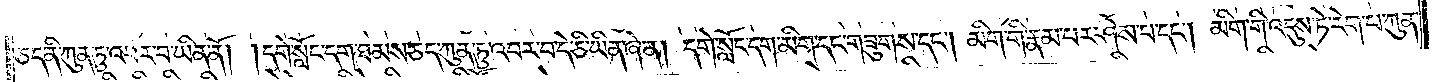ཅད་ནི་ཀུན་ཏུ་འབར་བ་ཡིན་ནོ། །དགེ་སློང་དག་ཐམས་ཅད་ཀུན་ཏུ་འབར་བ་དེ་ཅི་ཡིན་ཞེ་ན། དགེ་སློང་དག་མིག་དང་གཟུགས་དང༌། མིག་གི་རྣམ་པར་ཤེས་པ་དང༌། མིག་གི་འདུས་ཏེ་རེག་པ་ཀུན་
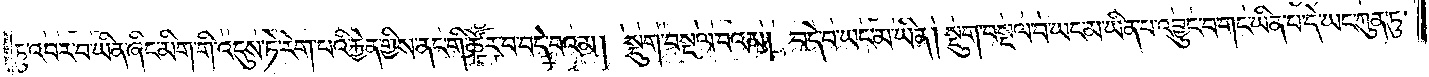ཏུ་འབར་བ་ཡིན་ཞིང་མིག་གི་འདུས་ཏེ་རེག་པའི་རྐྱེན་གྱིས་ནང་གི་ཚོར་བ་བདེ་བའམ། སྡུག་བསྔལ་བའམ། བདེ་བ་ཡང་མ་ཡིན། སྡུག་བསྔལ་བ་ཡང་མ་ཡིན་པ་འབྱུང་བ་གང་ཡིན་པ་དེ་ཡང་ཀུན་ཏུ་
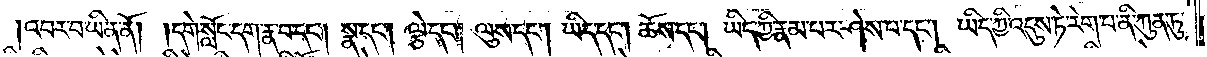འབར་བ་ཡིན་ནོ། །དགེ་སློང་དག་རྣ་བ་དང༌། སྣ་དང༌། ལྕེ་དང༌། ལུས་དང༌། ཡིད་དང༌། ཆོས་དང༌། ཡིད་ཀྱི་རྣམ་པར་ཤེས་པ་དང༌། ཡིད་ཀྱི་འདུས་ཏེ་རེག་པ་ནི་ཀུན་ཏུ་
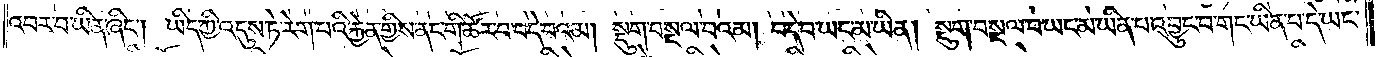འབར་བ་ཡིན་ཞིང༌། ཡིད་ཀྱི་འདུས་ཏེ་རེག་པའི་རྐྱེན་གྱིས་ནང་གི་ཚོར་བ་བདེ་བའམ། སྡུག་བསྔལ་བའམ། བདེ་བ་ཡང་མ་ཡིན། སྡུག་བསྔལ་བ་ཡང་མ་ཡིན་པ་འབྱུང་བ་གང་ཡིན་པ་དེ་ཡང་
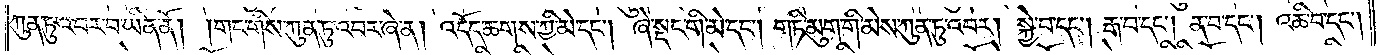ཀུན་ཏུ་འབར་བ་ཡིན་ནོ། །གང་གིས་ཀུན་ཏུ་འབར་ཞེ་ན། འདོད་ཆགས་ཀྱི་མེ་དང༌། ཞེ་སྡང་གི་མེ་དང༌། གཏི་མུག་གི་མེས་ཀུན་ཏུ་འབར། སྐྱེ་བ་དང༌། རྒ་བ་དང༌། ན་བ་དང༌། འཆི་བ་དང༌།
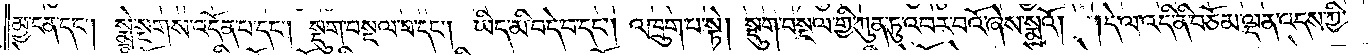མྱ་ངན་དང༌། སྨྲེ་སྔགས་འདོན་པ་དང༌། སྡུག་བསྔལ་བ་དང༌། ཡིད་མི་བདེ་བ་དང༌། འཁྲུག་པ་སྟེ། སྡུག་བསྔལ་གྱི་ཀུན་ཏུ་འབར་བའོ་ཞེས་སྨྲའོ། །དེ་ལ་འདི་ནི་བཅོམ་ལྡན་འདས་ཀྱི་
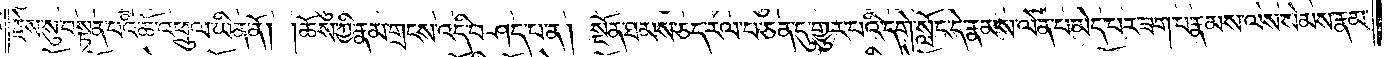རྗེས་སུ་བསྟན་པའི་ཆོ་འཕྲུལ་ཡིན་ནོ། །ཆོས་ཀྱི་རྣམ་གྲངས་འདི་བཤད་པ་ན། སྔོན་ཐམས་ཅད་རལ་པ་ཅན་དུ་གྱུར་པའི་དགེ་སློང་དེ་རྣམས་ལེན་པ་མེད་པར་ཟག་པ་རྣམས་ལས་སེམས་རྣམ་
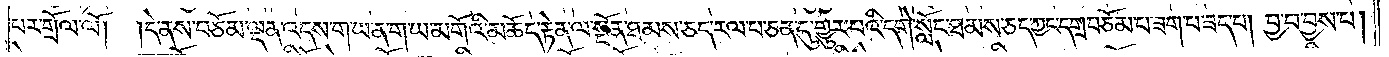པར་གྲོལ་ལོ། །དེ་ནས་བཅོམ་ལྡན་འདས་ག་ཡ་ན་ག་ཡ་མགོའི་མཆོད་རྟེན་ལ་སྔོན་ཐམས་ཅད་རལ་པ་ཅན་དུ་གྱུར་པའི་དགེ་སློང་ཐམས་ཅད་ཀྱང་དགྲ་བཅོམ་པ་ཟག་པ་ཟད་པ། བྱ་བ་བྱས་པ།
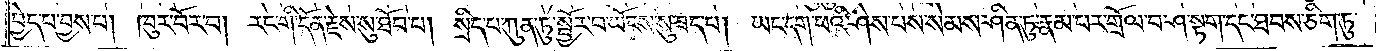བྱེད་པ་བྱས་པ། ཁུར་བོར་བ། རང་གི་དོན་རྗེས་སུ་ཐོབ་པ། སྲིད་པ་ཀུན་ཏུ་སྦྱོར་བ་ཡོངས་སུ་ཟད་པ། ཡང་དག་པའི་ཤེས་པས་སེམས་ཤིན་ཏུ་རྣམ་པར་གྲོལ་བ་ཤ་སྟག་དང་ཐབས་ཅིག་ཏུ་
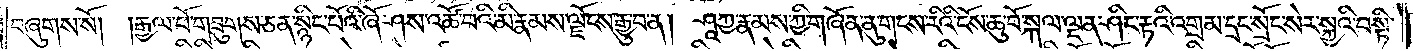བཞུགས་སོ། །རྒྱལ་པོ་གཟུགས་ཅན་སྙིང་པོའི་ཞོ་ཤས་འཚོ་བའི་མི་རྣམས་ལྗོངས་རྒྱུ་བ་ན། ཤཱཀྱ་རྣམས་ཀྱི་གཞོན་ནུ་གངས་རིའི་ངོས་ཆུ་བོ་སྐལ་ལྡན་ཤིང་རྟའི་འགྲམ་དྲང་སྲོང་སེར་སྐྱའི་བསྟི་
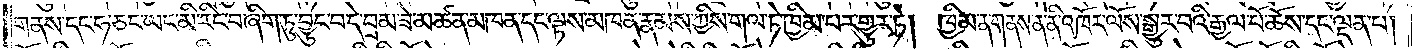གནས་དང་ཧ་ཅང་ཡང་མི་རིང་བ་ཞིག་ཏུ་བྱུང་བ་དེ་བྲམ་ཟེ་མཚན་མཁན་དང་ལྟས་མཁན་རྣམས་ཀྱིས་གལ་ཏེ་ཁྱིམ་པར་གྱུར་ཏེ། ཁྱིམ་ན་གནས་ན་ནི་འཁོར་ལོས་སྒྱུར་བའི་རྒྱལ་པོ་ཆོས་དང་ལྡན་པ།
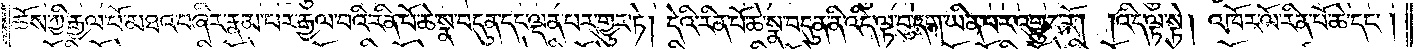ཆོས་ཀྱི་རྒྱལ་པོ་མཐའ་བཞིར་རྣམ་པར་རྒྱལ་བའི་རིན་པོ་ཆེ་སྣ་བདུན་དང་ལྡན་པར་གྱུར་ཏེ། དེའི་རིན་པོ་ཆེ་སྣ་བདུན་ནི་འདི་ལྟ་བུ་དག་ཡིན་པར་འགྱུར་རོ། །འདི་ལྟ་སྟེ། འཁོར་ལོ་རིན་པོ་ཆེ་དང༌།
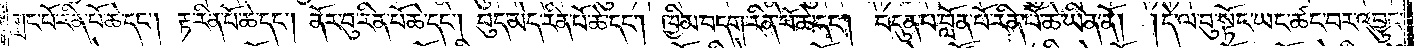གླང་པོ་རིན་པོ་ཆེ་དང༌། རྟ་རིན་པོ་ཆེ་དང༌། ནོར་བུ་རིན་པོ་ཆེ་དང༌། བུད་མེད་རིན་པོ་ཆེ་དང༌། ཁྱིམ་བདག་རིན་པོ་ཆེ་དང༌། བདུན་པ་བློན་པོ་རིན་པོ་ཆེ་ཡིན་ནོ། །དེ་ལ་བུ་སྟོང་ཡང་ཚང་བར་འབྱུང་
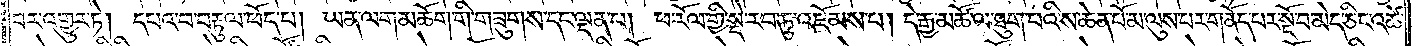བར་འགྱུར་ཏེ། དཔའ་བ་བརྟུལ་ཕོད་པ། ཡན་ལག་མཆོག་གི་གཟུགས་དང་ལྡན་པ། ཕ་རོལ་གྱི་སྡེ་རབ་ཏུ་འཇོམས་པ། དེ་རྒྱ་མཚོ་ལ་ཐུག་པའི་ས་ཆེན་པོ་མ་ལུས་པར་གནོད་པར་སྡོ་བ་མེད་ཅིང་འཚེ་
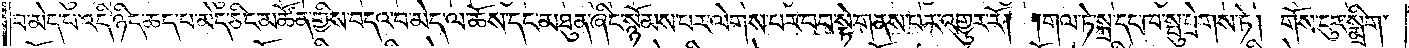བ་མེད་པ་འདི་ཉིད་ཆད་པ་མེད་ཅིང་མཚོན་གྱིས་བདའ་བ་མེད་ལ་ཆོས་དང་མཐུན་ཞིང་སྙོམས་པར་ལེགས་པར་བབ་སྟེ་གནས་པར་འགྱུར་རོ། །གལ་ཏེ་སྐྲ་དང་ཁ་སྤུ་བྲེགས་ཏེ། གོས་ངུར་སྨྲིག་
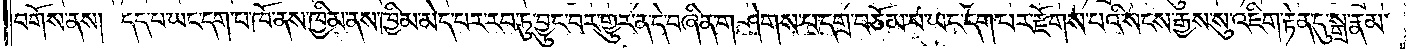བགོས་ནས། དད་པ་ཡང་དག་པ་ཁོ་ནས་ཁྱིམ་ནས་ཁྱིམ་མེད་པར་རབ་ཏུ་བྱུང་བར་གྱུར་ན་དེ་བཞིན་གཤེགས་པ་དགྲ་བཅོམ་པ་ཡང་དག་པར་རྫོགས་པའི་སངས་རྒྱས་སུ་འཇིག་རྟེན་དུ་སྒྲ་རྣམ་
